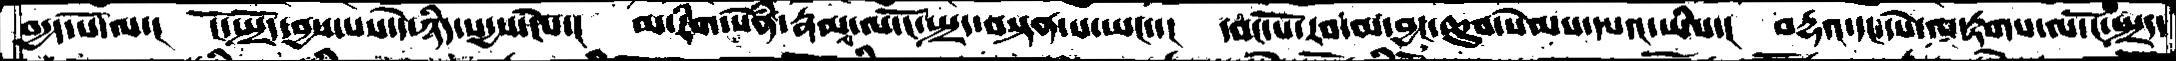བདྱད་པོ་ལ་།  ངོ་སྤྲོད་བྱས་པས་དེ་ཉིད་སདྱས་ངེས་།  མ་རིག་སེཾན་རྣམས་ལ་ངོ་སྤྲད་བསྟན་པ་ཡང་་།  དབང་པོ་རབ་མ་བྱང་ཆུབ་སེམས་དཔའ་ཡིས་།  བརྡའ་དང་དཔེ་ལ་རྟགས་ལ་ངོ་སྤྲད་
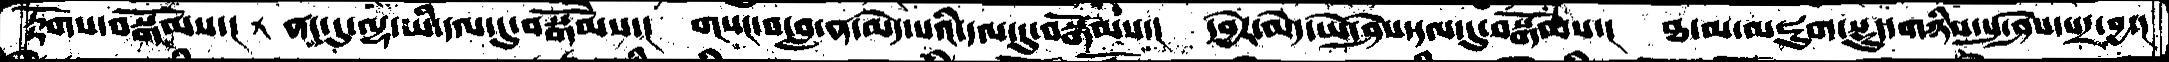རྟོགས་བསྒོམས་། ནང་དུ་ལྷ་ཡི་དལ་དུ་བསྒོམས་།  གསང་བ་བླ་ན་མེད་པའི་དལ་དུ་བསྒོམས་། དབྱེར་མེད་ཡེ་ཤེས་དལ་དུ་བསྒོམས་། ཐ་མ་མཛུག་སྡུད་གཉིས་སུ་ཤེས་པར་བྱ་།
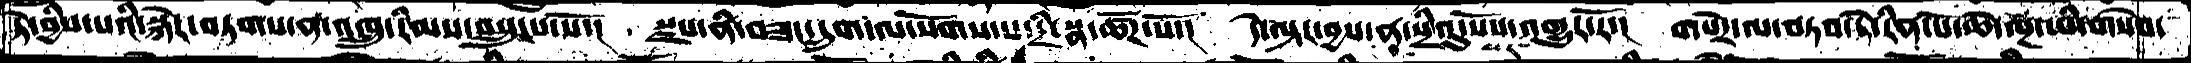ཏེ་བྱིས་པའི་སྐེར་བཏགས་ན་འཁྲུ་རིམས་བསྲུངས་སོ་། སྫས་ནི་བཟང་དྲུག་ལ་སོགས་པ་དྲི་སྣ་ཚོཌ་སོ་། དེ་ལྟར་བྱས་ན་སྲིའུ་སོས་པར་འགྱུར་རོ་། གསེར་ལ་བཏབ་ཏེ་རིན་པོ་ཆེ་ལྔ་ཡི་གསེབ་
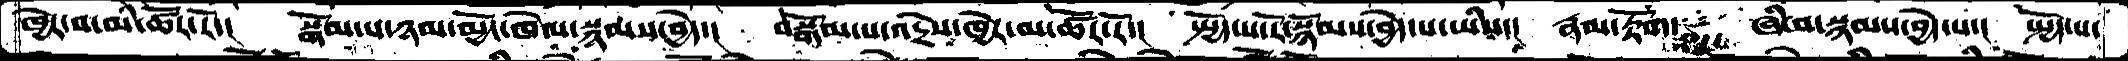ཁྱེར་བ་མི་ཚོར་རོ་། སྒོམ་པ་ཉམ་མྱོང་ཁེལ་སྙམས་བྱེད་། བསྒོམ་པ་འདྲེས་ཁྱེར་མ་ཚོར་རོ་། སྤྱོད་པ་རོ་སྙོམས་བྱེད་པ་ཡིས་། རྣམ་རྟོག་  ཞི་བ་སྙམས་བྱེད་པ་། སྤྱོད་པ་
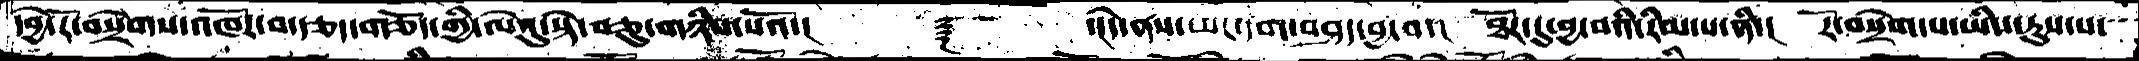དབྱེ་རོ་བསྲེགས་འཁོར་བ་རྩད་གཅོད་གྱི་ལེའུ་སྟེ་བཅུ་གཉིས་པའོ་།     ༈   ་།དེ་ནས་ཡང་དག་བཤད་བྱ་བ་། ཐོར་དུ་བྱ་བའི་རིམ་པ་ནི་།  རོ་བསྲེག་པ་ཡིས་རུས་པ་་་
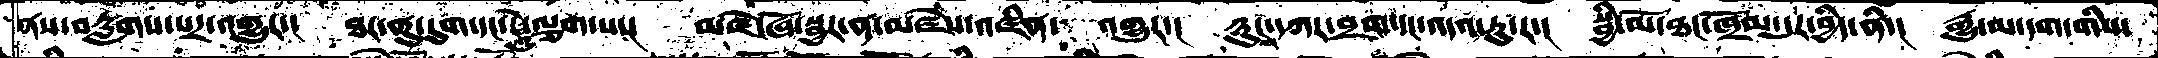ནས་བརླགས་པར་འགྱུར་།   ཐར་ནུ་དུག་དང་རེའུ་ལྕག་པ་།  མཛེ་ཞོ་སྦྱར་ན་མཛེས་འཛིན་འགྱུར་།  ཉུངས་དཀར་བྲག་དང་འདའ་རུ་ར་། སྦྱི་མོ་ཐང་ཁྲོམ་དུར་བྱིད་ནི་། རྒྱུ་མ་དག་གིས་
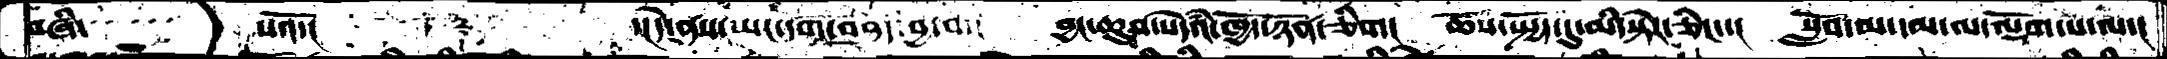བཞི་ ་་་་ པའོ་།  ༈  ་།དེ་ནས་ཡང་དག་བཤད་བྱ་བ་།  བྱང་ཆུབ་སེདཾའ་ཁྱོད་ཉོན་ཅིག།  ཆོས་སྤྱོད་དུ་མི་སྟེར་ཅིང་་།  སློབ་མ་མ་ལ་ལྡོག་པ་ལ་།
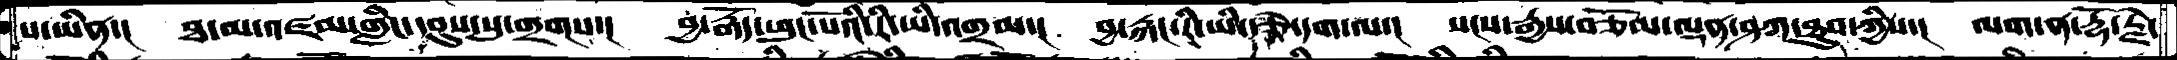ས་ཡིན་།  ཐ་མ་མཛམ་གླིང་དབུས་སུ་གྲགས་།  བྱ་རྒོད་ཕུང་པོའི་རི་ཡི་འགྲམ་།  བྱ་རྐང་རི་ཡི་རྩེ་དག་ལ་།  སངས་རྒྱས་བཅོམ་ལྡན་ཤཀ་ཐུབ་ཀྱིས་།  ལག་ན་རྡོ་རྗེ་
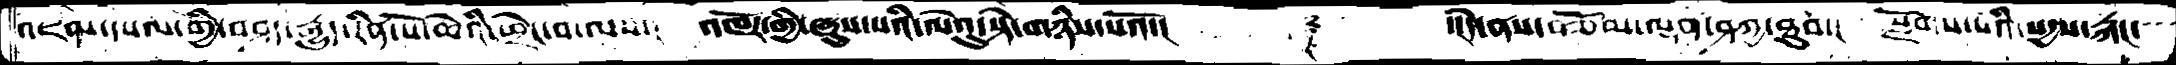འཇམ་དཔལ་གྱི་བཤད་རྒྱུད་རིན་པོ་ཆེའི་ཕྲེང་བ་ལས་།  འཁོར་གྱི་ཞུས་པའི་ལེའུ་སྟེ་གཉིས་པའོ་།  ༈  ་།དེ་ནས་བཅོམ་ལྡན་ཤཀྱ་ཐུབ་།  སྫོགས་པའི་སདྱས་རྐང་་་
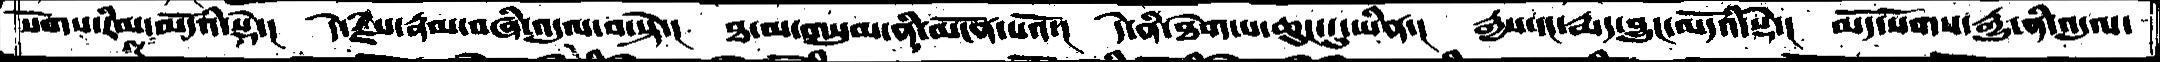སོགས་རིམ་ལྔ་མདོའི་སྡེ་།  དེ་རྗེས་རྣམ་བཞི་འདུལ་བ་སྟེ་།  ཐ་མ་གསུམ་ནི་མངོན་པའོ་།  དེ་ནི་ཐེག་པ་ཆུང་དུ་ཡིན་།  རྒྱས་དང་རྨད་བྱུང་མདོའི་སྡེ་།  མདོ་སོགས་རྒྱུ་ནི་འདུལ་
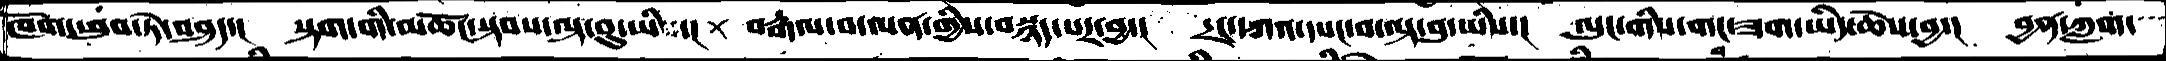ཁོོག་ཕུབ་ཏེ་བཤད་།  སྟག་གི་མཆོང་སྟབས་ལྟ་བུ་ཡི་།  བརྒལ་བ་ལན་གྱིས་བསྙད་པར་བྱ་།  དྲང་དཀའ་དཔང་བ་ལྟ་བུ་ཡིས་།  ལུང་གིས་གང་ཟག་ཡིད་ཆེས་བྱ་།  བྱན་ཀླག་་་
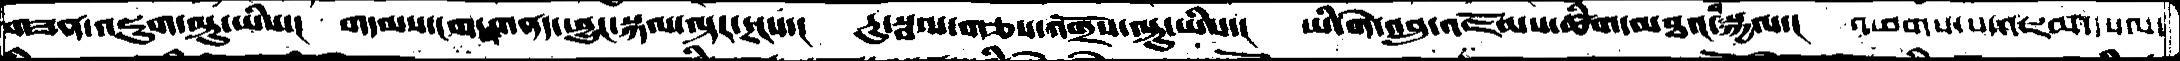གཟན་འཇུག་ལྟུ་ཡིས་།  གདམས་ངག་གནད་ཕྱུང་སྐལ་ལྟར་དྲངས་།  རུ་སྦལ་གཅས་འགྲོས་ལྟུ་ཡིས་།  ཡི་གེ་འབྲུ་འཇོམས་ཚིག་མཐའ་བསྐྱལ་།  འཕགས་པ་འཇམ་དཔལ་
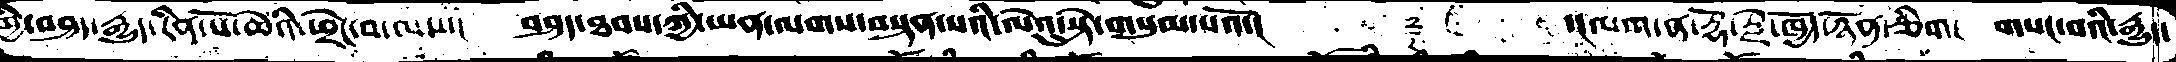ཀྱི་བཤད་རྒྱུད་རིན་པོ་ཆེའི་ཕྲེང་བ་ལས་།  བཤད་ཐབས་ཀྱི་ཡན་ལགས་བསྟན་པའི་ལེའུ་སྟེ་གསུམ་པའོ་།    ༈    ་།ལག་ན་རྡོ་རྗེ་ཁྱོད་ཉོན་ཅིག།  གསང་བའི་རྒྱུད་
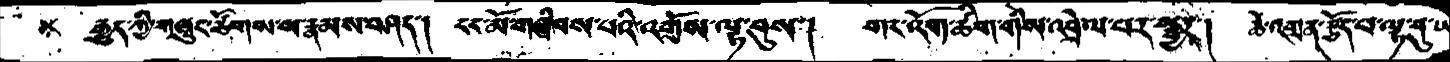རྒྱུད་ཀྱི་གཞུང་ཚོགས་ས་རྣམས་བཤད་།   ངང་མོ་གཞིབས་པའི་འགྲོས་ལྟ་བུས་།   གང་འོག་ཚིག་གིས་འབྲེལ་པར་སྦྱར་།  ཆེ་འགྲན་རྩོད་པ་ལྟ་བུ་ཡ
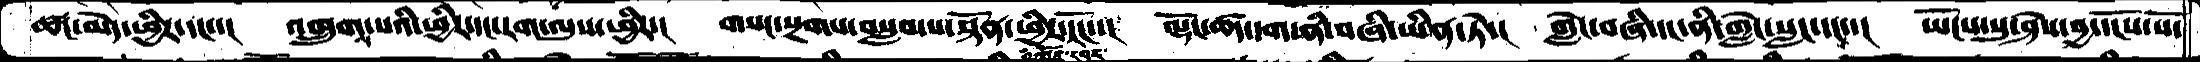ཚང་མེེད་ཕྱིར་དང་་།  འཁྲུགས་པའི་ཕྱིར་དང་རག་ལུས་ཕྱིར་།  གསང་སྔགས་བསླབ་པ་སྟོན་ཕྱིར་རོང་་།  ལྡོང་ཚད་དག་ནི་བཞི་ཡིན་ཏེ་།  གླེང་བཞི་དང་ནི་གླེང་སླང་དང་་།  ཡོངས་སུ་ཤེས་བྱ་དངོས་པོ་
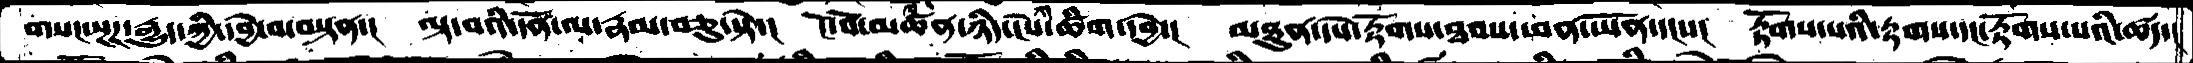གསང་སྔཌ་རྒྱུད་ཀྱི་དབྱེ་བ་བསྟན་།  ལྟ་བའི་དོན་ལ་རྣམ་བཅུ་སྟེ་། ངོ་བོ་མཚན་ཉིད་ངེས་ཚིག་དབྱེ་། མཐུན་དཔེ་རྟོགས་ཐབས་ཕན་ཡོན་དང་་། རྟོགས་པའི་རྟགས་དང་རྟོགས་པའི་ཚད་།
